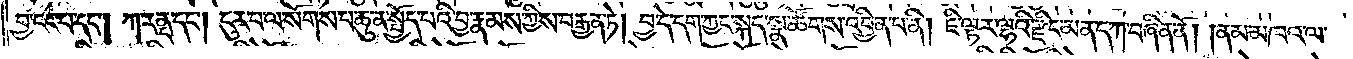བྱ་ངང་པ་དང༌། ཀ་རནྡ་དང༌། ངུར་པ་ལ་སོགས་པ་ཆུ་ན་སྤྱོད་པའི་བྱ་རྣམས་ཀྱིས་བརྒྱན་ཏེ། བྱ་དེ་དག་ཀྱང་སྐད་སྣ་ཚོགས་འབྱིན་པ་ནི། ཇི་ལྟར་ལྷའི་རྫིང་མན་ད་ཀ་བཞིན་ནོ། །ནམ་མཁའ་ལ་
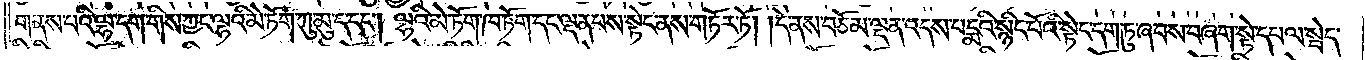གནས་པའི་ལྷ་དག་གིས་ཀྱང་ལྷའི་མེ་ཏོག་ཀུ་མུ་ད་དང༌། ལྷའི་མེ་ཏོག་ཁ་ཏོག་དང་ལྡན་པས་སྟེང་ནས་གཏོར་ཏོ། །དེ་ནས་བཅོམ་ལྡན་འདས་པདྨའི་སྙིང་པོའི་སྟེང་དག་ཏུ་ཞབས་བཞག་སྟེ་དཔལ་སྦེད་
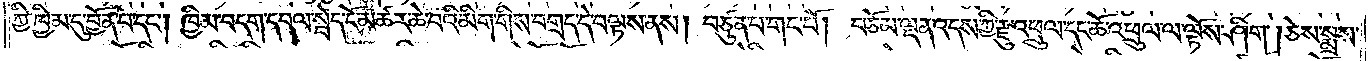ཀྱི་ཁྱིམ་དུ་བྱོན་པ་དང༌། ཁྱིམ་བདག་དཔལ་སྦེད་ངོ་མཚར་ཆེ་བའི་མིག་གིས་བགྲད་དེ་བལྟས་ནས། བཙུན་པ་གང་པོ། བཅོམ་ལྡན་འདས་ཀྱི་རྫུ་འཕྲུལ་དང་ཆོ་འཕྲུལ་ལ་ལྟོས་ཤིག །ཅེས་སྨྲས་
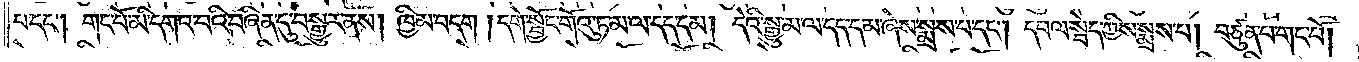པ་དང༌། གང་པོ་མི་དགའ་བའི་བཞིན་དུ་བསྒྱུར་ནས། ཁྱིམ་བདག །དགེ་སློང་གོའུ་ཏ་མ་དད་དམ། དེའི་སྒྱུ་མ་ལ་དད་དམ་ཞེས་སྨྲས་པ་དང༌། དཔལ་སྦེད་ཀྱིས་སྨྲས་པ། བཙུན་པ་གང་པོ།
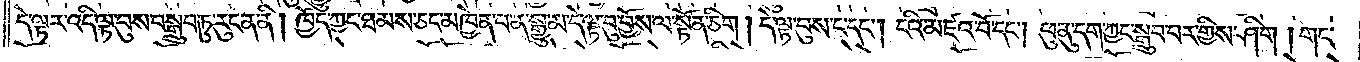དེ་ལྟར་འདི་ལྟ་བུས་བསྒྲུབ་ཏུ་རུང་ན་ནི། ཁྱོད་ཀྱང་ཐམས་ཅད་མཁྱེན་པ་ན་སྒྱུ་མ་དེ་ལྟ་བུ་བྱོས་ལ་སྟོན་ཅིག །དེ་ལྟ་བུས་ང་དང༌། ངའི་མཛའ་བོ་དང༌། ཕུ་ནུ་དག་ཀྱང་བསྒྲུབ་པར་གྱིས་ཤིག །གང་
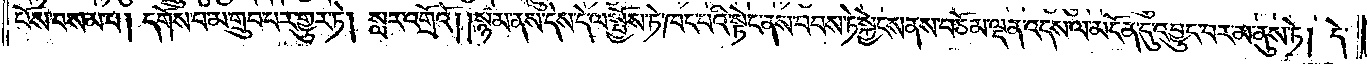པོས་བསམ་པ། དགོས་པ་མ་གྲུབ་པར་གྱུར་ཏེ། སླར་འགྲོའོ། །སྙམ་ནས་དེས་དེ་ལ་སྤྱོས་ཏེ་ཁང་པའི་སྟེང་ནས་བབས་ཏེ་སྐྱེངས་ནས་བཅོམ་ལྡན་འདས་ལ་མངོན་དུ་འབྱུང་བར་མ་ནུས་ཏེ། དེ་
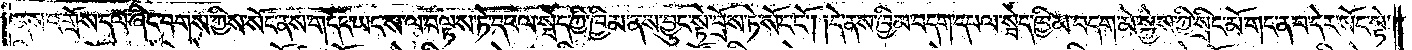ནས་འགྲོས་དལ་ཞིང་བགས་ཀྱིས་སོང་ནས་གདོང་ཡང་ས་ལ་བལྟས་ཏེ་དཔལ་སྦེད་ཀྱི་ཁྱིམ་ནས་བྱུང་སྟེ་བྲོས་ཏེ་སོང་ངོ༌། །དེ་ནས་ཁྱིམ་བདག་དཔལ་སྦེད་ཁྱིམ་བདག་མེ་སྐྱེས་ཀྱི་སྲིང་མོ་གང་ན་བ་དེར་སོང་སྟེ་
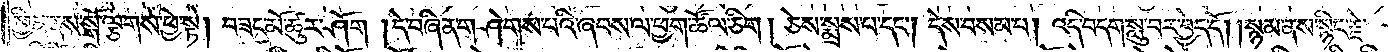ཕྱིན་ནས་སྒོ་ལྕགས་ཕྱེ་སྟེ། བཟང་མོ་ཚུར་ཤོག །དེ་བཞིན་གཤེགས་པའི་ཞབས་ལ་ཕྱག་ཚོལ་ཅིག །ཅེས་སྨྲས་པ་དང༌། དེས་བསམ་པ། འདི་བདག་སླུ་བར་བྱེད་དོ། །སྙམ་ནས་སྙིང་རྗེ་
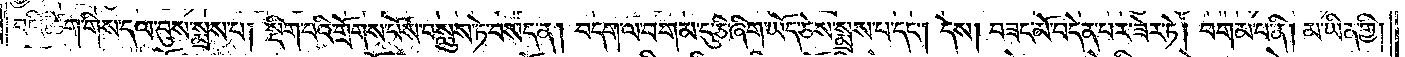བའི་ཚིག་གིས་དལ་བུས་སྨྲས་པ། སྡིག་པའི་གྲོགས་པོས་བསླུས་ཏེ་བསད་ན། བདག་ལ་བགམ་དུ་ཅི་ཞིག་ཡོད་ཅེས་སྨྲས་པ་དང༌། དེས། བཟང་མོ་བདེན་པར་ཟེར་ཏེ། བགམ་པ་ནི། མ་ཡིན་གྱི།
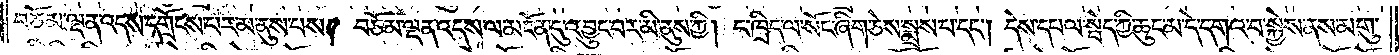བཅོམ་ལྡན་འདས་དགྲོངས་པར་མ་ནུས་པས། བཅོམ་ལྡན་འདས་ལ་མངོན་དུ་འབྱུང་བར་མི་ནུས་ཀྱི། ང་ཁྲིད་ལ་སོང་ཞིག་ཅེས་སྨྲས་པ་དང༌། དེས་དཔལ་སྦེད་ཀྱི་ཆུང་མ་དེ་དགའ་བ་སྐྱེས་ནས་མགུ་
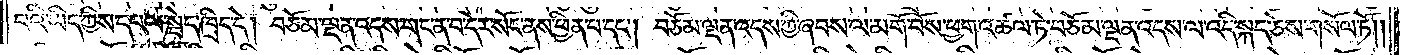བའི་ཡིད་ཀྱིས་དཔལ་སྦེད་ཁྲིད་དེ། བཅོམ་ལྡན་འདས་གང་ན་བ་དེར་སོང་ནས་ཕྱིན་པ་དང༌། བཅོམ་ལྡན་འདས་ཀྱི་ཞབས་ལ་མགོ་བོས་ཕྱག་འཚལ་ཏེ་བཅོམ་ལྡན་འདས་ལ་འདི་སྐད་ཅེས་གསོལ་ཏོ༎
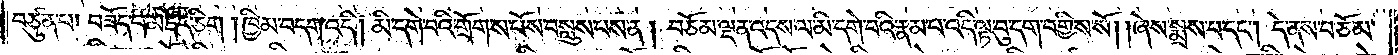བཙུན་པ། བཟོད་པ་མཛོད་ཅིག །ཁྱིམ་བདག་འདི། མི་དགེ་བའི་གྲོགས་པོས་བསླུས་པས་ན། བཅོམ་ལྡན་འདས་ལ་མི་དགེ་བའི་རྣམ་པ་འདི་ལྟ་བུ་དག་བགྱིས་སོ། །ཞེས་སྨྲས་པ་དང༌། དེ་ནས་བཅོམ་
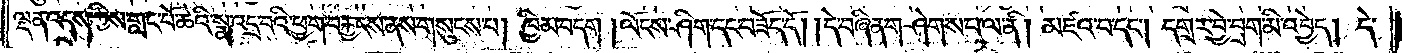ལྡན་འདས་ཀྱིས་གླང་པོ་ཆེའི་སྣ་འདྲ་བའི་ཕྱག་བརྐྱངས་ནས་གསུངས་པ། ཁྱིམ་བདག །ལོངས་ཤིག་དང་བཟོད་དོ། །དེ་བཞིན་གཤེགས་པ་ལ་ནི། མཛའ་བ་དང༌། དགྲར་བྱེ་བྲག་མི་འབྱེད། དེ་
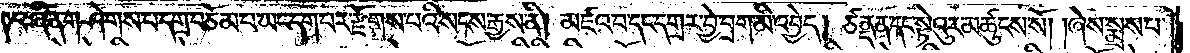བཞིན་གཤེགས་པ་དགྲ་བཅོམ་པ་ཡང་དག་པར་རྫོགས་པའི་སངས་རྒྱས་ནི། མཛའ་བ་དང་དགྲར་བྱེ་བྲག་མི་འབྱེད། ཙནྡན་དང་སྟེའུར་མཚུངས་སོ། །ཞེས་སྨྲས་པ་
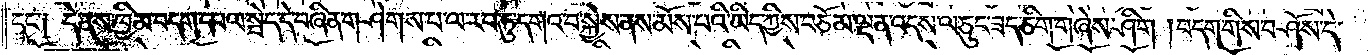དང་༑ དེ་ནས་ཁྱིམ་བདག་དཔལ་སྦེད་དེ་བཞིན་གཤེགས་པ་ལ་རབ་ཏུ་དགའ་བ་སྐྱེས་ནས་མོས་པའི་ཡིད་ཀྱིས་བཅོམ་ལྡན་འདས་ལ་ཅུང་ཟད་ཅིག་གཞེས་ཤིག །བདག་གིས་བཤོས་དེ་
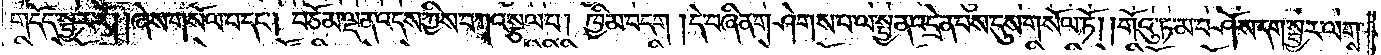གདོད་སྦྱར་རོ། །ཞེས་གསོལ་པ་དང༌། བཅོམ་ལྡན་འདས་ཀྱིས་བཀའ་སྩལ་པ། ཁྱིམ་བདག །དེ་བཞིན་གཤེགས་པ་ལ་སྤྱན་འདྲེན་པས་དུས་གསོལ་ཏོ། །གོའུ་ཏ་མ་བཤོས་དག་སྦྱར་ལགས་
